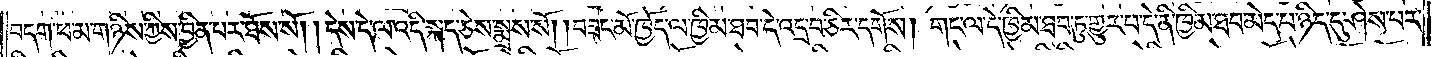བདག་ཕ་མ་གཉིས་ཀྱིས་བྱིན་པར་ཐོས་སོ། །དེས་དེ་ལ་འདི་སྐད་ཅེས་སྨྲས་སོ། །བཟང་མོ་ཁྱོད་ལ་ཁྱིམ་ཐབ་དེ་འདྲ་བ་ཅིར་དགོས། གང་ལ་དེ་ཁྱིམ་ཐབ་ཏུ་གྱུར་པ་དེ་ནི་ཁྱིམ་ཐབ་མེད་པ་ཉིད་དུ་ཤེས་པར་
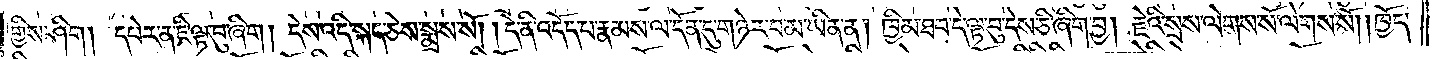གྱིས་ཤིག། དཔེར་ན་ཇི་ལྟ་བུ་ཞིག །དེས་འདི་སྐད་ཅེས་སྨྲས་སོ། །དེ་ནི་འདོད་པ་རྣམས་ལ་དོན་དུ་གཉེར་བ་མ་ཡིན་ན། ཁྱིམ་ཐབ་དེ་ལྟ་བུ་དེས་ཅི་ཞིག་བྱ། རྗེའི་སྲས་ལེགས་སོ་ལེགས་སོ། །ཁྱོད་
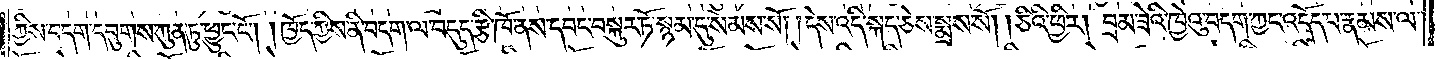ཀྱིས་བདག་དབུགས་ཀུན་ཏུ་ཕྱུང་ངོ༌། །ཁྱོད་ཀྱིས་ནི་བདག་ལ་བདུད་རྩི་ཁོ་ནས་དབང་བསྐུར་ཏོ་སྙམ་དུ་སེམས་སོ། །དེས་འདི་སྐད་ཅེས་སྨྲས་སོ། །ཅིའི་ཕྱིར། བྲམ་ཟེའི་ཁྱེའུ་བདག་ཀྱང་འདོད་པ་རྣམས་ལ་
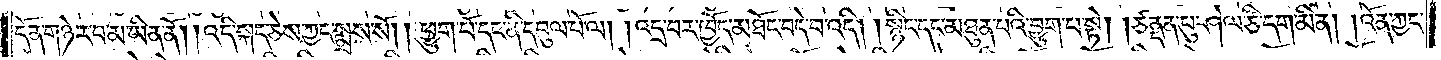དོན་གཉེར་བ་མ་ཡིན་ནོ། །འདི་སྐད་ཅེས་ཀྱང་སྨྲས་སོ། །ཕྱུག་པོ་དང་ནི་དབུལ་པོ་ལ། །འདྲ་བར་ཁྱོད་མཐོང་བདེ་བ་འདི། །སྙིང་དང་མཐུན་པའི་བྱུག་པ་སྟེ། །ཙནྡན་པུ་ཤེལ་ཙི་དག་མིན། །འོན་ཀྱང་
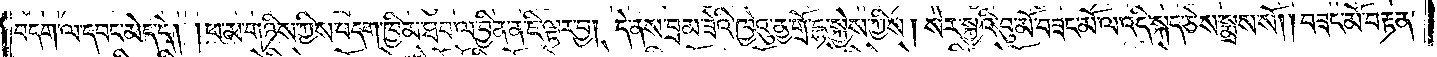བདག་ལ་དབང་མེད་དེ། །ཕ་མ་གཉིས་ཀྱིས་བདག་ཁྱིམ་ཐབ་ལ་བྱིན་ན་ཇི་ལྟར་བྱ། དེ་ནས་བྲམ་ཟེའི་ཁྱེའུ་ནྱ་གྲོ་དྷ་སྐྱེས་ཀྱིས། སེར་སྐྱའི་བུ་མོ་བཟང་མོ་ལ་འདི་སྐད་ཅེས་སྨྲས་སོ། །བཟང་མོ་བརྟན་
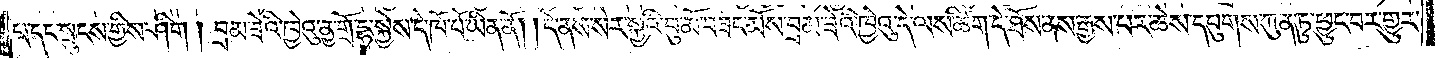པ་དང་སྤུངས་གྱིས་ཤིག །བྲམ་ཟེའི་ཁྱེའུ་ནྱ་གྲོ་དྷ་སྐྱེས་དེ་ཁོ་བོ་ཡིན་ནོ། །དེ་ནས་སེར་སྐྱའི་བུ་མོ་བཟང་མོས་བྲམ་ཟེའི་ཁྱེའུ་དེ་ལས་ཚིག་དེ་ཐོས་ནས་རྒྱས་པར་ཆེས་དབུགས་ཀུན་ཏུ་ཕྱུང་བར་གྱུར་
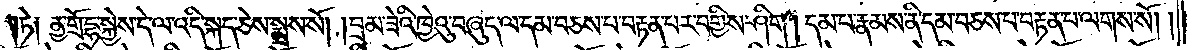ཏེ། ནྱ་གྲོ་དྷ་སྐྱེས་དེ་ལ་འདི་སྐད་ཅེས་སྨྲས་སོ། །བྲམ་ཟེའི་ཁྱེའུ་བཞུད་ལ་དམ་བཅས་པ་བརྟན་པར་བགྱིས་ཤིག །དམ་པ་རྣམས་ནི་དམ་བཅས་པ་བརྟན་པ་ལགས་སོ། །
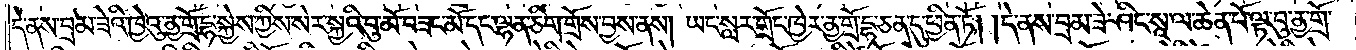དེ་ནས་བྲམ་ཟེའི་ཁྱེའུ་ནྱ་གྲོ་དྷ་སྐྱེས་ཀྱིས་སེར་སྐྱའི་བུ་མོ་བཟང་མོ་དང་ལྷན་ཅིག་གྲོས་བྱས་ནས། ཡང་སླར་གྲོང་ཁྱེར་ནྱ་གྲོ་དྷ་ཅན་དུ་ཕྱིན་ཏོ། །དེ་ནས་བྲམ་ཟེ་ཤིང་སཱ་ལ་ཆེན་པོ་ལྟ་བུ་ནྱ་གྲོ་
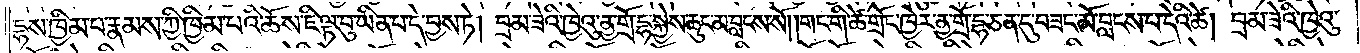དྷས་ཁྱིམ་པ་རྣམས་ཀྱི་ཁྱིམ་པའི་ཆོས་ཇི་ལྟ་བུ་ཡིན་པ་དེ་བྱས་ཏེ། བྲམ་ཟེའི་ཁྱེའུ་ནྱ་གྲོ་དྷ་སྐྱེས་ཆུང་མ་བླངས་སོ། །གང་གི་ཚེ་གྲོང་ཁྱེར་ནྱ་གྲོ་དྷ་ཅན་དུ་བཟང་མོ་བླངས་པ་དེའི་ཚེ། བྲམ་ཟེའི་ཁྱེའུ་
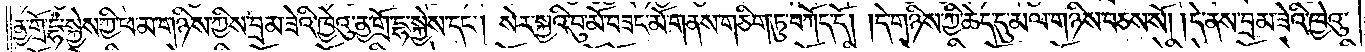ནྱ་གྲོ་དྷ་སྐྱེས་ཀྱི་ཕ་མ་གཉིས་ཀྱིས་བྲམ་ཟེའི་ཁྱེའུ་ནྱ་གྲོ་དྷ་སྐྱེས་དང༌། སེར་སྐྱའི་བུ་མོ་བཟང་མོ་གནས་གཅིག་ཏུ་བཀོད་དོ། །དེ་གཉིས་ཀྱི་ཆེད་དུ་མལ་གཉིས་བཅས་སོ། །དེ་ནས་བྲམ་ཟེའི་ཁྱེའུ་
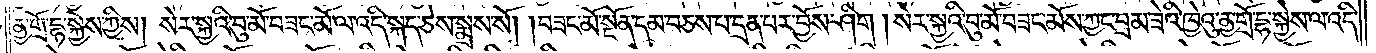ནྱ་གྲོ་དྷ་སྐྱེས་ཀྱིས། སེར་སྐྱའི་བུ་མོ་བཟང་མོ་ལ་འདི་སྐད་ཅེས་སྨྲས་སོ། །བཟང་མོ་སྔོན་དམ་བཅས་པ་དྲན་པར་བྱོས་ཤིག །སེར་སྐྱའི་བུ་མོ་བཟང་མོས་ཀྱང་བྲམ་ཟེའི་ཁྱེའུ་ནྱ་གྲོ་དྷ་སྐྱེས་ལ་འདི་
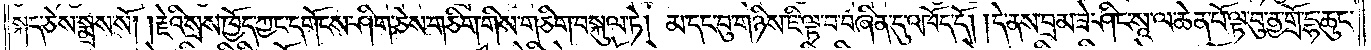སྐད་ཅེས་སྨྲས་སོ། །རྗེའི་སྲས་ཁྱོད་ཀྱང་དགོངས་ཤིག་ཅེས་གཅིག་གིས་གཅིག་བསྐུལ་ཏེ། མ་དང་བུ་གཉིས་ཇི་ལྟ་བ་བཞིན་དུ་འཁོད་དོ། །དེ་ནས་བྲམ་ཟེ་ཤིང་སཱ་ལ་ཆེན་པོ་ལྟ་བུ་ནྱ་གྲོ་དྷ་ཆུང་
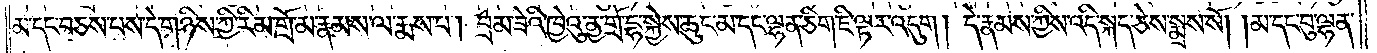མ་དང་བཅས་པས་དེ་གཉིས་ཀྱི་རིམ་གྲོ་མ་རྣམས་ལ་རྨས་པ། བྲམ་ཟེའི་ཁྱེའུ་ནྱ་གྲོ་དྷ་སྐྱེས་ཆུང་མ་དང་ལྷན་ཅིག་ཇི་ལྟར་འདུག །དེ་རྣམས་ཀྱིས་འདི་སྐད་ཅེས་སྨྲས་སོ། །མ་དང་བུ་ལྷན་
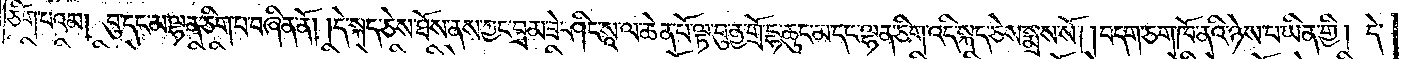ཅིག་པའམ། བུ་དང་མ་ལྷན་ཅིག་པ་བཞིན་ནོ། །དེ་སྐད་ཅེས་ཐོས་ནས་ཀྱང་བྲམ་ཟེ་ཤིང་སཱ་ལ་ཆེན་པོ་ལྟ་བུ་ནྱ་གྲོ་དྷ་ཆུང་མ་དང་ལྷན་ཅིག་འདི་སྐད་ཅེས་སྨྲས་སོ། །བདག་ཅག་ཁོ་ནའི་ཉེས་པ་ཡིན་གྱི། དེ་
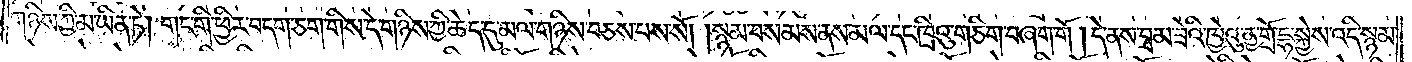གཉིས་ཀྱི་མ་ཡིན་ཏེ། གང་གི་ཕྱིར་བདག་ཅག་གིས་དེ་གཉིས་ཀྱི་ཆེད་དུ་མལ་གཉིས་བཅས་པས་སོ། །སྙམ་བསམས་ནས་མལ་དང་ཁྲིའུ་གཅིག་བཞག་གོ །དེ་ནས་བྲམ་ཟེའི་ཁྱེའུ་ནྱ་གྲོ་དྷ་སྐྱེས་འདི་སྙམ་
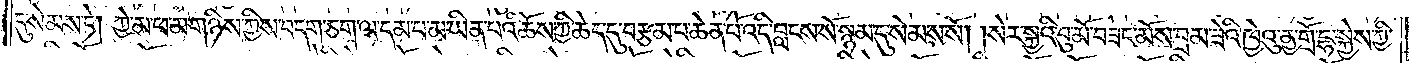དུ་སེམས་ཏེ། ཀྱེ་མ་ཕ་མ་གཉིས་ཀྱིས་བདག་ཅག་ལ་དམ་པ་མ་ཡིན་པའི་ཆོས་ཀྱི་ཆེད་དུ་བརྩམ་པ་ཆེན་པོ་འདི་བླངས་སོ་སྙམ་དུ་སེམས་སོ། །སེར་སྐྱའི་བུ་མོ་བཟང་མོས་བྲམ་ཟེའི་ཁྱེའུ་ནྱ་གྲོ་དྷ་སྐྱེས་ཀྱི་
